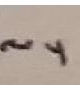ལ་།
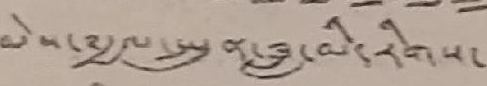མེས་༸རྒྱལ་སྤུན་ཟླ་མི་རིགས་
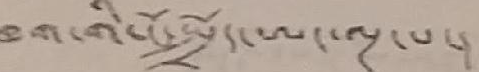ཁག་གི་ངོ་སྤྲོད་ཨང་ལྔ་པ་།
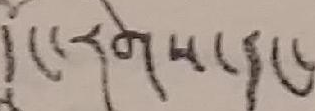དཱོང་རིགས་དང་
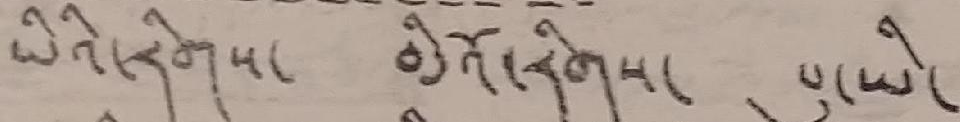ཡིའི་རིགས་ མིའོ་རིགས་ པུ་ཡི་
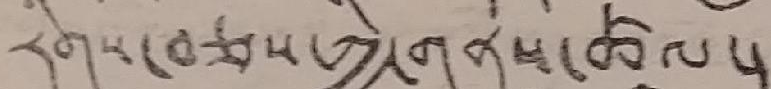རིགས་བཅས་ཀྱི་གནས་ཚུལ་།
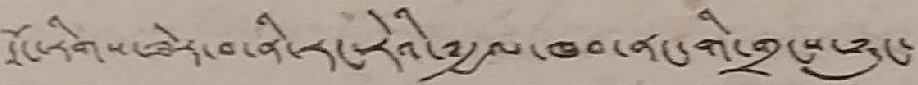དཱོང་རིགས་ཟེར་བ་ནི་རང་རེའི་༸རྒྱལ་ཁབ་ནང་གི་གྲངས་ཉུང་
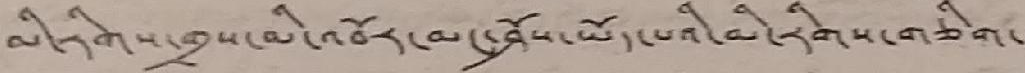མི་རིགས་གྲས་མི་འབོར་མང་ཤོས་ཡོད་པའི་མི་རིགས་གཅིག་
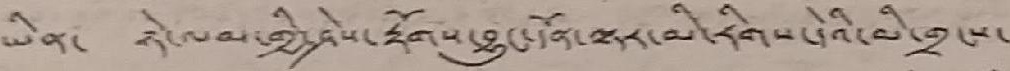ཡིན་ ཉེ་ལམ་གྱི་ཤེས་རྟོགས་བྱུང་དོན་ལྟར་མི་རིགས་དེའི་མི་གྲངས་
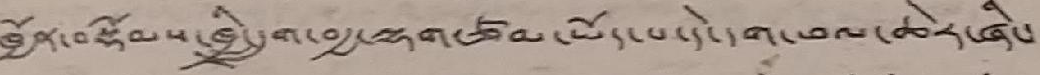ཁྱོན་བསྡོམས་ཁྲི་དྲུག་བརྒྱ་ལྷག་ཙམ་ཡོད་པ་དེ་དག་ཕལ་ཆེར་ཞིང་
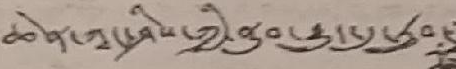ཆེན་ཀཱ་ཤིས་ཀྱི་ནུབ་རྒྱུད་རུབ་
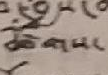ཚོགས་
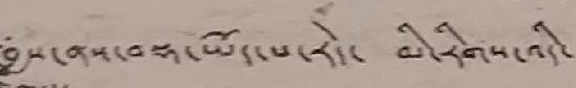བྱས་ནས་བསྟ་ཡོད་པ་རེད་ མི་རིགས་འདི་
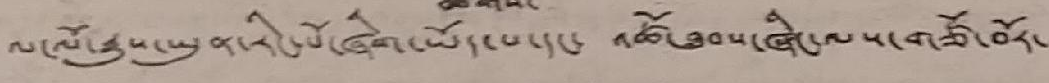ལ་ལོ་རྒྱུས་ཡུན་རིང་པོ་ཞིག་ཡོད་པ་དང་ འཚོ་ཐབས་ཞིང་ལས་གཙོ་བོར་
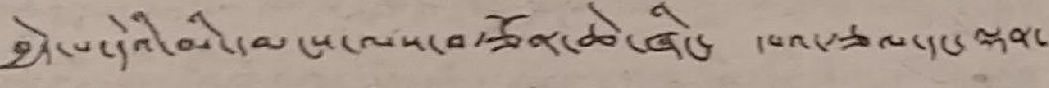བྱེད་པ་དེའི་མི་དམངས་ལས་བཙོན་ཆེ་ཞིང་ དཔའ་ཙལ་དང་ལྡན་
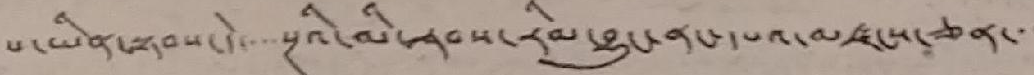པ་ཡིན་སྟབས་དེ་་་་སྔའི་མི་རབས་རིམ་བྱུང་ནང་དཔའ་མཛངས་ཅན་་་
